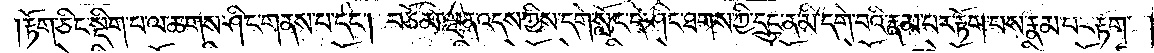།རྟོག་ཅིང་སྡིག་པ་ལ་ཆགས་ཤིང་གནས་པ་དང༌། བཅོམ་ལྡན་འདས་ཀྱིས་དགེ་སློང་དེ་ཤིང་ཐགས་ཀྱི་དྲུང་ན་མི་དགེ་བའི་རྣམ་པར་རྟོག་པས་རྣམ་པར་རྟོག་
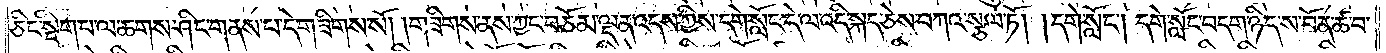ཅིང་སྡིག་པ་ལ་ཆགས་ཤིང་གནས་པ་དེ་གཟིགས་སོ། །གཟིགས་ནས་ཀྱང་བཅོམ་ལྡན་འདས་ཀྱིས་དགེ་སློང་དེ་ལ་འདི་སྐད་ཅེས་བཀའ་སྩལ་ཏོ། །དགེ་སློང༌། དགེ་སློང་བདག་ཉིད་ས་བོན་ཚ་བ་
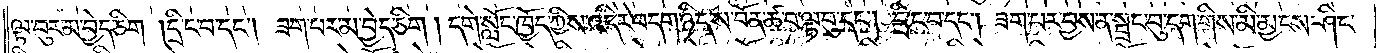ལྟ་བུར་མ་བྱེད་ཅིག །དྲི་ང་བ་དང༌། ཟག་པར་མ་བྱེད་ཅིག །དགེ་སློང་ཁྱོད་ཀྱིས་འདིར་བདག་ཉིད་ས་བོན་ཚ་བ་ལྟ་བུ་དང༌། དྲི་ང་བ་དང༌། ཟག་པར་བྱས་ན་སྦྲང་བུ་དག་གིས་མི་མྱངས་ཤིང་
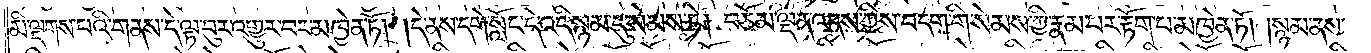མི་ལྡགས་པའི་གནས་དེ་ལྟ་བུར་འགྱུར་བར་མཁྱེན་ཏོ། །དེ་ནས་དགེ་སློང་དེ་འདི་སྙམ་དུ་སེམས་ཏེ། བཅོམ་ལྡན་འདས་ཀྱིས་བདག་གི་སེམས་ཀྱི་རྣམ་པར་རྟོག་པ་མཁྱེན་ཏོ། །སྙམ་ནས་
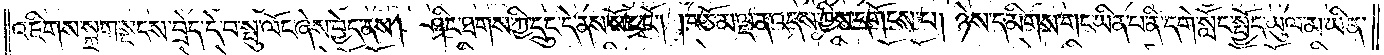འཇིགས་སྐྲག་སྡངས་བྲེད་དེ་བ་སྤུ་ལོང་ཞེས་བྱེད་ནས། ཤིང་ཐགས་ཀྱི་དྲུང་དེ་ནས་སོང་ངོ༌། །བཅོམ་ལྡན་འདས་ཀྱིས་དགོངས་པ། ཉེས་དམིགས་གང་ཡིན་པ་ནི་དགེ་སློང་སྤྱོད་ཡུལ་མ་ཡིན་
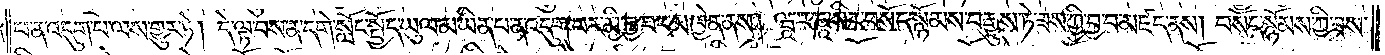པ་ན་འདུག་པ་ལས་གྱུར་ཏེ། དེ་ལྟ་བས་ན་དགེ་སློང་སྤྱོད་ཡུལ་མ་ཡིན་པ་ན་འདུག་པར་མི་བྱ་བར་མཁྱེན་ནས། ཝཱ་ར་ཎཱ་སིར་བསོད་སྙོམས་བརྒྱུས་ཏེ་ཟས་ཀྱི་བྱ་བ་མཛད་ནས། བསོད་སྙོམས་ཀྱི་ཟས་
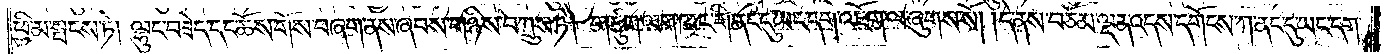ཕྱི་མ་སྤངས་ཏེ། ལྷུང་བཟེད་དང་ཆོས་གོས་བཞག་ནས་ཞབས་གཉིས་བཀྲུས་ཏེ། གཙུག་ལག་ཁང་གི་ནང་དུ་ཡང་དག་འཇོག་ལ་ཞུགས་སོ། །དེ་ནས་བཅོམ་ལྡན་འདས་དགོངས་ཀ་ནང་དུ་ཡང་དག་
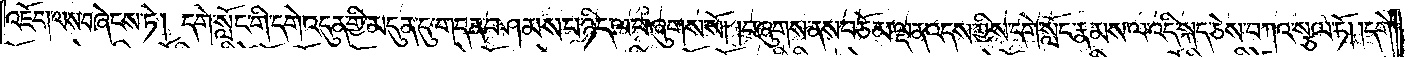འཇོག་ལས་བཞེངས་ཏེ། དགེ་སློང་གི་དགེ་འདུན་གྱི་མདུན་དུ་གདན་བཤམས་པ་ཉིད་ལ་བཞུགས་སོ། །བཞུགས་ནས་བཅོམ་ལྡན་འདས་ཀྱིས་དགེ་སློང་རྣམས་ལ་འདི་སྐད་ཅེས་བཀའ་སྩལ་ཏོ། །དགེ་
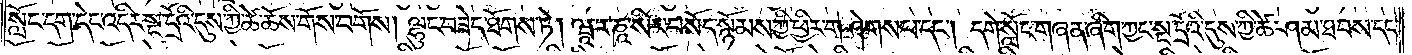སློང་དག་དེང་འདིར་སྔ་དྲོའི་དུས་ཀྱི་ཚེ་ཆོས་གོས་བགོས། ལྷུང་བཟེད་ཐོགས་ཏེ། ཝཱ་ར་ནཱ་སིར་བསོད་སྙོམས་ཀྱི་ཕྱིར་གཤེགས་པ་དང༌། དགེ་སློང་གཞན་ཞིག་ཀྱང་སྔ་དྲོའི་དུས་ཀྱི་ཚེ་ཤམ་ཐབས་དང་
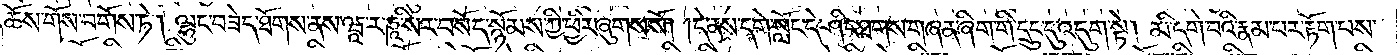ཆོས་གོས་བགོས་ཏེ། ལྷུང་བཟེད་ཐོགས་ནས་ཝཱ་ར་ཎཱ་སིར་བསོད་སྙོམས་ཀྱི་ཕྱིར་ཞུགས་སོ། །དེ་ནས་དགེ་སློང་དེ་ཤིང་ཐགས་གཞན་ཞིག་གི་དྲུང་དུ་འདུག་སྟེ། མི་དགེ་བའི་རྣམ་པར་རྟོག་པས་
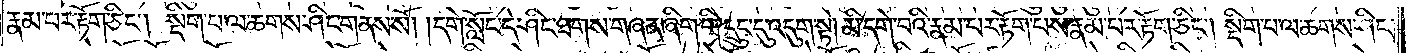རྣམ་པར་རྟོག་ཅིང༌། སྡིག་པ་ལ་ཆགས་ཤིང་གནས་སོ། །དགེ་སློང་དེ་ཤིང་ཐགས་གཞན་ཞིག་གི་དྲུང་དུ་འདུག་སྟེ། མི་དགེ་བའི་རྣམ་པར་རྟོག་པས་རྣམ་པར་རྟོག་ཅིང༌། སྡིག་པ་ལ་ཆགས་ཤིང་
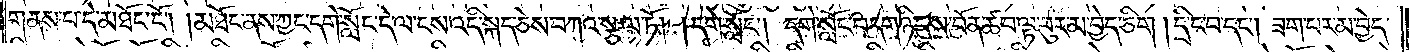གནས་པ་དེ་མཐོང་ངོ༌། །མཐོང་ནས་ཀྱང་དགེ་སློང་དེ་ལ་ངས་འདི་སྐད་ཅེས་བཀའ་སྩལ་ཏོ། །དགེ་སློང༌། དགེ་སློང་བདག་ཉིད་ས་བོན་ཚ་བ་ལྟ་བུར་མ་བྱེད་ཅིག །དྲི་ང་བ་དང༌། ཟག་པར་མ་བྱེད་
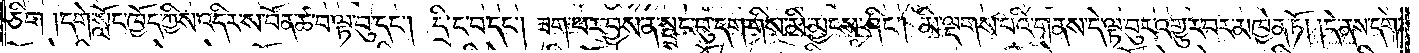ཅིག །དགེ་སློང་ཁྱོད་ཀྱིས་འདིར་ས་བོན་ཚ་བ་ལྟ་བུ་དང༌། དྲི་ང་བ་དང༌། ཟག་པར་བྱས་ན་སྦྲང་བུ་དག་གིས་མི་མྱངས་ཤིང༌། མི་ལྡགས་པའི་གནས་དེ་ལྟ་བུར་འགྱུར་བར་མཁྱེན་ཏོ། །དེ་ནས་དགེ་
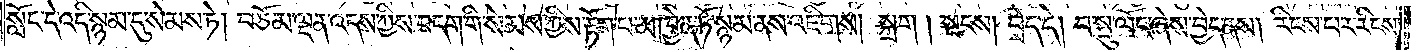སློང་དེ་འདི་སྙམ་དུ་སེམས་ཏེ། བཅོམ་ལྡན་འདས་ཀྱིས་བདག་གི་སེམས་ཀྱིས་རྟོག་པ་མཁྱེན་ཏོ་སྙམ་ནས་འཇིགས། སྐྲག། སྡངས། བྲེད་དེ། བ་སྤུ་ལོང་ཞེས་བྱེད་ནས། རིངས་པར་རིངས་
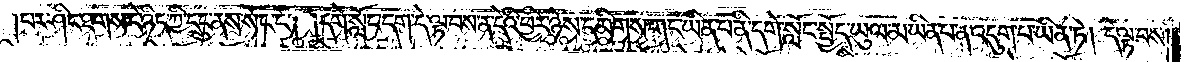པར་ཤིང་ཐགས་དེ་ཉིད་ཀྱི་དྲུང་ནས་སོང་ངོ༌། །དགེ་སློང་དག་དེ་ལྟ་བས་ན་དེའི་ཕྱིར་ཉེས་དམིགས་གང་ཡིན་པ་ནི་དགེ་སློང་སྤྱོད་ཡུལ་མ་ཡིན་པ་ན་འདུག་པ་ཡིན་ཏེ། དེ་ལྟ་བས་
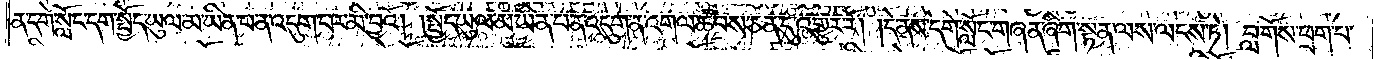ན་དགེ་སློང་དག་སྤྱོད་ཡུལ་མ་ཡིན་པ་ན་འདུག་པར་མི་བྱའོ། །སྤྱོད་ཡུལ་མ་ཡིན་པ་ན་འདུག་ན་འགལ་ཚབས་ཅན་དུ་འགྱུར་རོ། །དེ་ནས་དགེ་སློང་ཞན་ཞིག་སྟན་ལས་ལངས་ཏེ། བླ་གོས་ཕྲག་པ་
